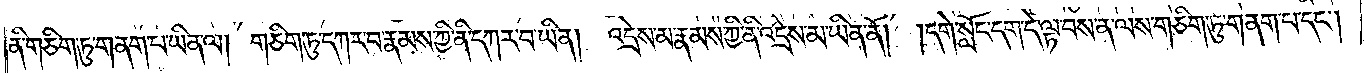ནི་གཅིག་ཏུ་གནག་པ་ཡིན་ལ། གཅིག་ཏུ་དཀར་བ་རྣམས་ཀྱི་ནི་དཀར་བ་ཡིན། འདྲེས་མ་རྣམས་ཀྱི་ནི་འདྲེས་མ་ཡིན་ནོ། །དགེ་སློང་དག་དེ་ལྟ་བས་ན་ལས་གཅིག་ཏུ་གནག་པ་དང༌།
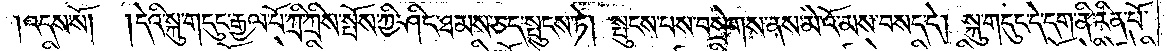འདས་སོ། །དེའི་སྐུ་གདུང་རྒྱལ་པོ་ཀྲི་ཀྲིས་སྤོས་ཀྱི་ཤིང་ཐམས་ཅད་སྤུངས་ཏེ། སྤུངས་པས་བསྲེགས་ནས་མེ་འོ་མས་བསད་དེ། སྐུ་གདུང་དེ་དག་ནི་རིན་པོ་
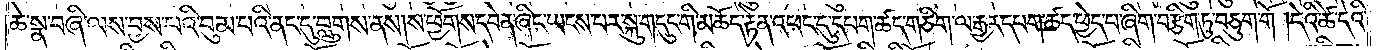ཆེ་སྣ་བཞི་ལས་བྱས་པའི་བུམ་པའི་ནང་དུ་བླུགས་ནས། ས་ཕྱོགས་དབེན་ཞིང་ཡངས་པར་སྐུ་གདུང་གི་མཆོད་རྟེན་འཕང་དུ་དཔག་ཚད་གཅིག་ལ་རྒྱར་དཔག་ཚད་ཕྱེད་པ་ཞིག་བརྩིག་ཏུ་བཅུག་གོ །དེའི་ཚེ་དེའི་
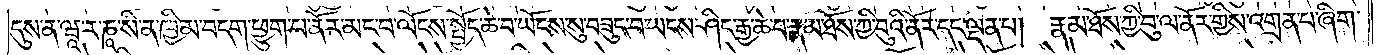དུས་ན་ཝཱ་ར་ཎཱ་སི་ན་ཁྱིམ་བདག་ཕྱུག་པ་ནོར་མང་བ་ལོངས་སྤྱོད་ཆེ་བ་ཡོངས་སུ་བཟུང་བ་ཡངས་ཤིང་རྒྱ་ཆེ་བ་རྣམ་ཐོས་ཀྱི་བུའི་ནོར་དང་ལྡན་པ། རྣམ་ཐོས་ཀྱི་བུ་ལ་ནོར་གྱིས་འགྲན་པ་ཞིག་
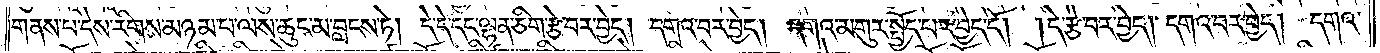གནས་པ་དེས་རིགས་མཉམ་པ་ལས་ཆུང་མ་བླངས་ཏེ། དེ་དེ་དང་ལྷན་ཅིག་རྩེ་བར་བྱེད། དགའ་བར་བྱེད། དགའ་མགུར་སྤྱོད་པར་བྱེད་དོ། །དེ་རྩེ་བར་བྱེད། དགའ་བར་བྱེད། དགའ་
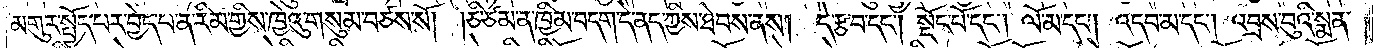མགུར་སྤྱོད་པར་བྱེད་པ་ན་རིམ་གྱིས་ཁྱེའུ་གསུམ་བཙས་སོ། །ཅི་ཙམ་ན་ཁྱིམ་བདག་དེ་ནད་ཀྱིས་ཐེབས་ནས། དེ་རྩ་བ་དང༌། སྡོང་པོ་དང༌། ལོ་མ་དང༌། འདབ་མ་དང༌། འབྲས་བུའི་སྨན་
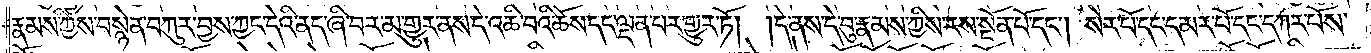རྣམས་ཀྱིས་བསྙེན་བཀུར་བྱས་ཀྱང་དེའི་ནད་ཞི་བར་མ་གྱུར་ནས་དེ་འཆི་བའི་ཆོས་དང་ལྡན་པར་གྱུར་ཏོ། །དེ་ནས་དེ་བུ་རྣམས་ཀྱིས་རས་སྔོན་པོ་དང༌། སེར་པོ་དང་དམར་པོ་དང་དཀར་པོས་
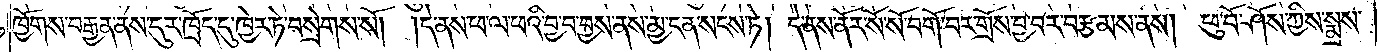ཁྱོགས་བརྒྱན་ནས་དུར་ཁྲོད་དུ་ཁྱེར་ཏེ་བསྲེགས་སོ། །དེ་ནས་ཕ་ལ་ཕའི་བྱ་བ་བྱས་ནས་མྱ་ངན་སངས་ཏེ། དེ་ནས་ནོར་སོ་སོ་བགོ་བར་གྲོས་བྱ་བར་བརྩམས་ནས། ཕུ་བོ་ཤོས་ཀྱིས་སྨྲས་
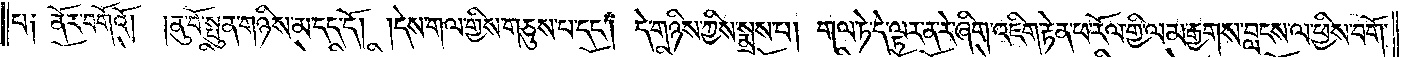པ༑ ནོར་བགོའོ། །ནུ་བོ་སྤུན་གཉིས་མ་དད་དོ། །དེས་གལ་གྱིས་གཅུས་པ་དང༌། དེ་གཉིས་ཀྱིས་སྨྲས་པ། གལ་ཏེ་དེ་ལྟར་ན་རེ་ཞིག་འཇིག་རྟེན་ཕ་རོལ་གྱི་ལམ་རྒྱགས་བླངས་ལ་ཕྱིས་བགོ་
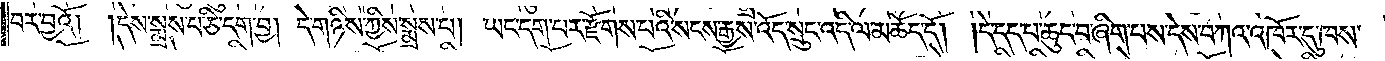བར་བྱའོ། །དེས་སྨྲས་པ་ཅི་དག་བྱ། དེ་གཉིས་ཀྱིས་སྨྲས་པ། ཡང་དག་པར་རྫོགས་པའི་སངས་རྒྱས་འོད་སྲུང་འདི་ལ་མཆོད་དོ། །དེ་དད་པ་ཆུང་བ་ཞིག་པས་དེས་བཀའ་འཁོར་དུ་ཁས་
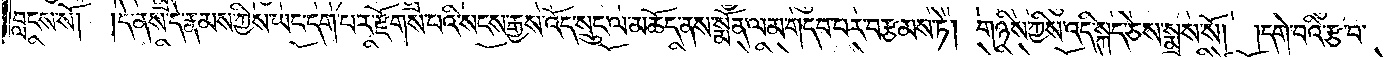བླངས་སོ། །དེ་ནས་དེ་རྣམས་ཀྱིས་ཡང་དག་པར་རྫོགས་པའི་སངས་རྒྱས་འོད་སྲུང་ལ་མཆོད་ནས་སྨོན་ལམ་གདབ་པར་བརྩམས་ཏེ། གཉིས་ཀྱིས་འདི་སྐད་ཅེས་སྨྲས་སོ། །དགེ་བའི་རྩ་བ་
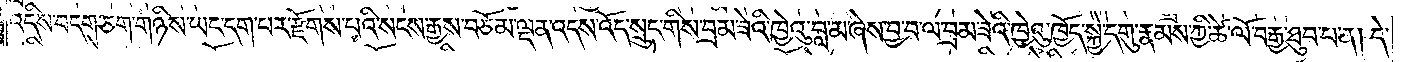འདིས་བདག་ཅག་གཉིས་ཡང་དག་པར་རྫོགས་པའི་སངས་རྒྱས་བཅོམ་ལྡན་འདས་འོད་སྲུང་གིས་བྲམ་ཟེའི་ཁྱེའུ་བླ་མ་ཞེས་བྱ་བ་ལ་བྲམ་ཟེའི་ཁྱེའུ་ཁྱོད་སྐྱེ་དགུ་རྣམས་ཀྱི་ཚེ་ལོ་བརྒྱ་ཐུབ་པ་ན། དེ་
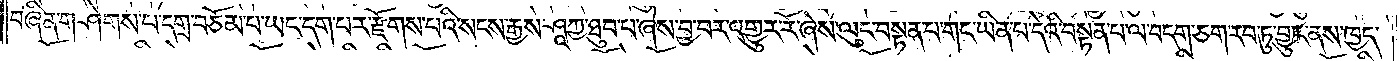བཞིན་གཤེགས་པ་དགྲ་བཅོམ་པ་ཡང་དག་པར་རྫོགས་པའི་སངས་རྒྱས་ཤཱཀྱ་ཐུབ་པ་ཞེས་བྱ་བར་འགྱུར་རོ་ཞེས་ལུང་བསྟན་པ་གང་ཡིན་པ་དེའི་བསྟན་པ་ལ་བདག་ཅག་རབ་ཏུ་བྱུང་ནས་ཁྱད་
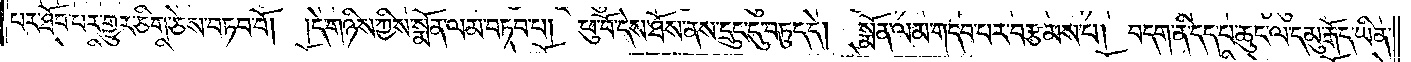པར་ཐོབ་པར་གྱུར་ཅིག་ཅེས་བཏབ་བོ། །དེ་གཉིས་ཀྱིས་སྨོན་ལམ་བཏབ་པ། ཕུ་བོ་དེས་ཐོས་ནས་དྲུང་དུ་བཏུད་དེ། སྨོན་ལམ་གདབ་པར་བརྩམས་པ། བདག་ནི་དད་པ་ཆུང་ལ་དམུ་རྒོད་ཡིན་
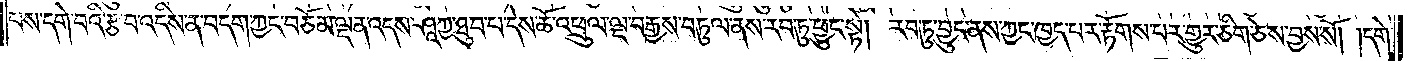པས་དགེ་བའི་རྩ་བ་འདིས་ན་བདག་ཀྱང་བཅོམ་ལྡན་འདས་ཤཱཀྱ་ཐུབ་པ་དེས་ཆོ་འཕྲུལ་ལྔ་བརྒྱས་བཏུལ་ནས་རབ་ཏུ་ཕྱུང་སྟེ། རབ་ཏུ་བྱུང་ནས་ཀྱང་ཁྱད་པར་རྟོགས་པར་གྱུར་ཅིག་ཅེས་བྱས་སོ། །དགེ་
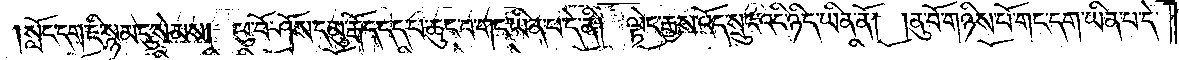སློང་དག་ཇི་སྙམ་དུ་སེམས། ཕུ་བོ་ཤོས་དམུ་རྒོད་དད་པ་ཆུང་བ་གང་ཡིན་པ་དེ་ནི། ལྟེང་རྒྱས་འོད་སྲུང་འདི་ཉིད་ཡིན་ནོ། །ནུ་བོ་གཉིས་པོ་གང་དག་ཡིན་པ་དེ་
